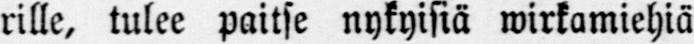rille, tulee paitse nykyisiä wirkamiehiä
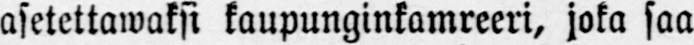asetettawaksi kaupunginkamreeri, joka saa
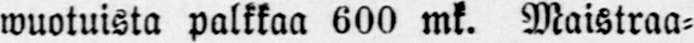wuotuista palkkaa 600 mk. Maistraa-
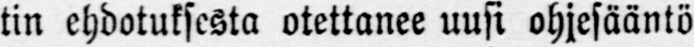tin ehdotuksesta otettanee uusi ohjesääntö
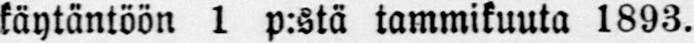käytäntöön 1 p:stä tammikuuta 1893.
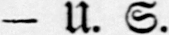- U. S.
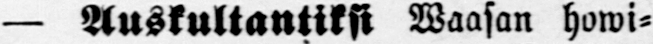— Auskultantiksi Waasan howi-
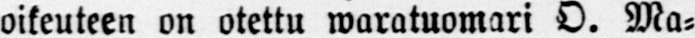oikeuteen on otettu waratuomari O. Ma-
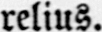relius.
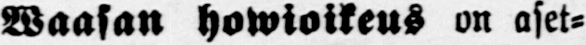— Waasan howioikeus on aset-
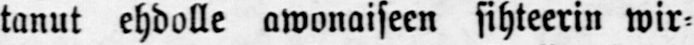tanut ehdolle awonaiseen sihteerin wir-
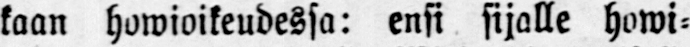kaan howioikeudessa: ensi sijalle howi-
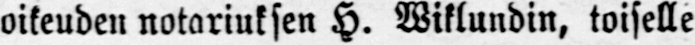oikeuden notariuksen H. Wiklundin, toiselle
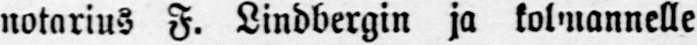notarius F. Lindbergin ja kolmannelle
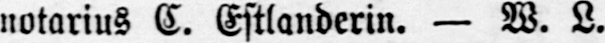notarius C. Estlanderin. — W. L.
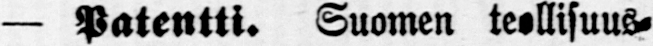— Patentti. Suomen teollisuus-
